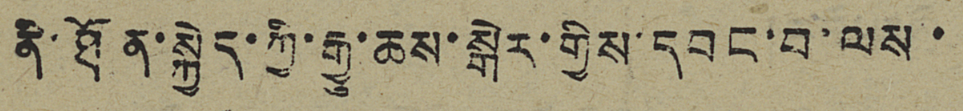ནི་ཐོན་སྐྱེད་ཀྱི་རྒྱུ་ཆས་སྒེར་གྱིས་དབང་བ་ལས་
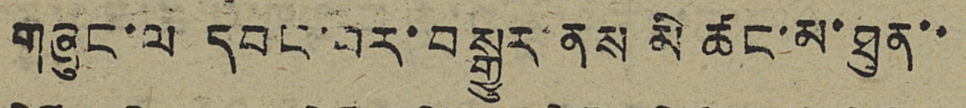གཞུང་ལ་དབང་བར་བསྒྱུར་ནས་མི་ཚང་མ་ཐུན་་
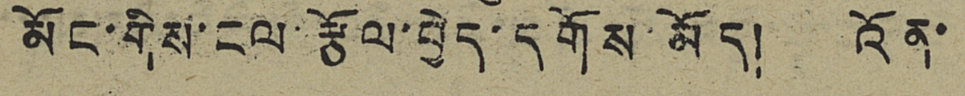མོང་གིས་ངལ་རྩོལ་བྱེད་དགོས་མོད། འོན་
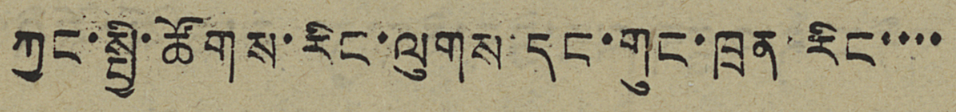ཀྱང་སྤྱི་ཚོགས་རིང་ལུགས་དང་གུང་ཁྲན་རིང་་་་
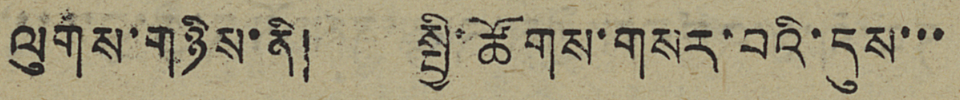ལུགས་གཉིས་ནི། སྤྱི་ཚོགས་གསར་བའི་དུས་་་
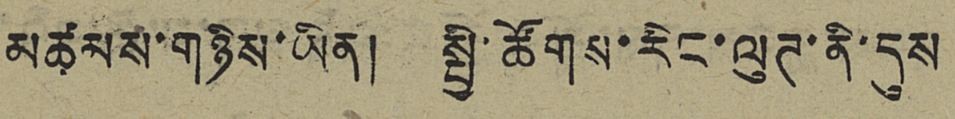མཚམས་གཉིས་ཡིན། སྤྱི་ཚོགས་རིང་ལུཊ་ནི་དུས
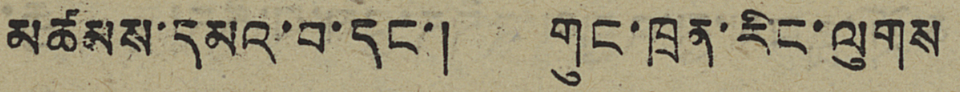མཚམས་དམའ་བ་དང་། གུང་ཁྲན་རིང་ལུགས་
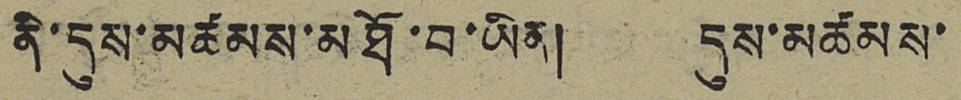ནི་དུས་མཚམས་མཐོ་བ་ཡིན། དུས་མཚམས་
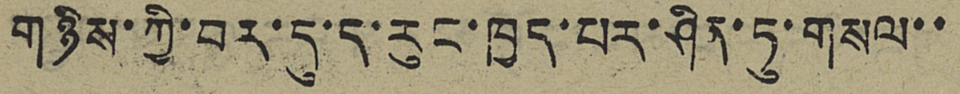གཉིས་ཀྱི་བར་དུ་ད་རུང་ཁྱད་པར་ཤིན་ཏུ་གསལ་་
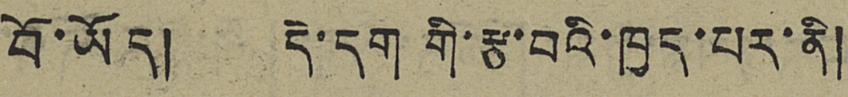བོ་ཡོད། དེ་དག་གི་རྩ་བའི་ཁྱད་པར་ནི།
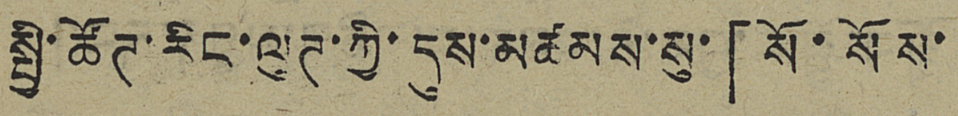སྤྱི་ཚོཊ་རིང་ལུཊ་ཀྱི་དུས་མཚམས་སུ་「སོ་སོས་
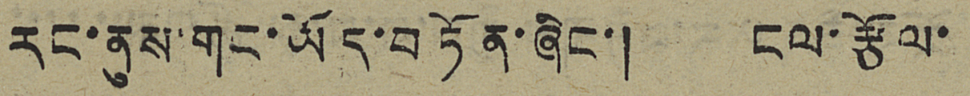རང་ནུས་གང་ཡོད་བཏོན་ཞིང་། ངལ་རྩོལ་
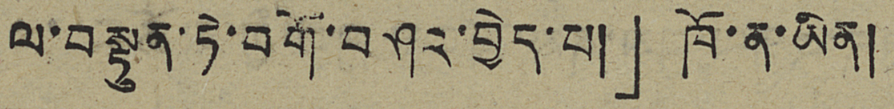ལ་བསྟུན་ཏེ་བགོ་བཤའ་བྱེད་པ།」 ཁོ་ན་ཡིན།
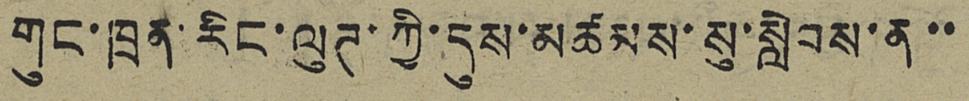གུང་ཁྲན་རིང་ལུཊ་ཀྱི་དུས་མཚམས་སུ་སླེབས་ན་་
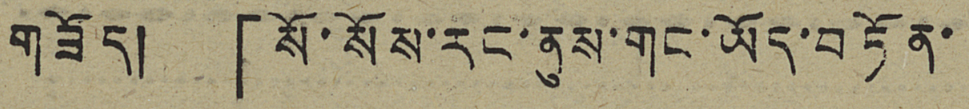གཟོད། 「སོ་སོས་རང་ནུས་གང་ཡོད་བཏོན་
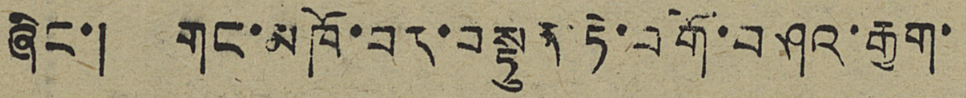ཞིང་། གང་མཁོ་བར་བསྟུན་ཏེ་བགོ་བཤའ་རྒྱག་
